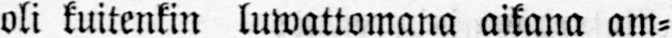oli kuitenkin lutwattomana aikana am-
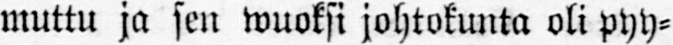muttu ja sen wuoksi johtokunta oli pyy-
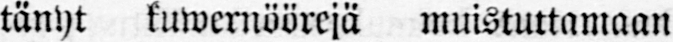tänyt kuwernöörejä muistuttamaan
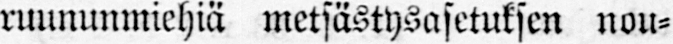ruununmiehiä metsästysasetuksen nou-
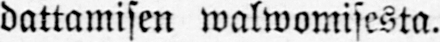dattamisen walwomisesta.
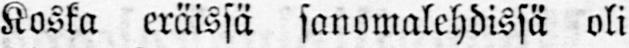Koska eräissä sanomalehdissä oli
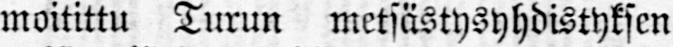moitittu Turun metsästysyhdistyksen
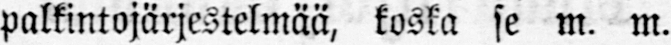palkintojärjestelmää, koska se m. m.
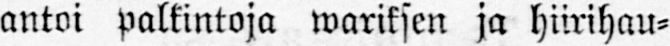antoi palkintoja wariksen ja hiirihau-
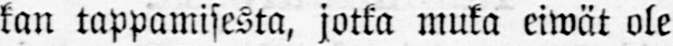kan tappamisesta, jotka muka eiwät ole
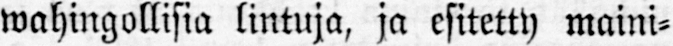wahingollisia lintuja, ja esitetty maini-
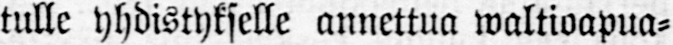tulle yhdistykselle annettua waltioapua-
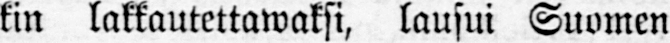kin lakkautettawaksi, lausui Suomen
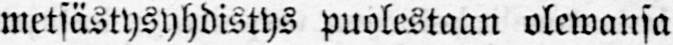metsästysyhdistys puolestaan olewansa
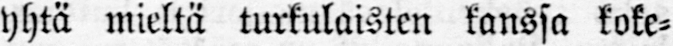yhtä mieltä turkulaisten kanssa koke-
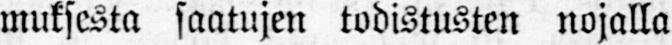muksesta saatujen todistusten nojalla
